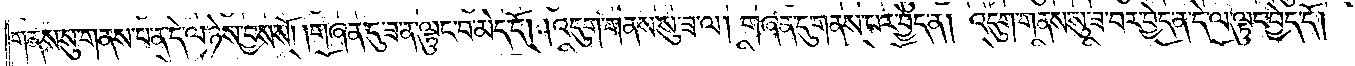གནས་སུ་གནས་པ་ན་དེ་ལ་ཉེས་བྱས་སོ། །གཞན་དུ་ཟ་ན་ལྟུང་བ་མེད་དོ། །འདུག་གནས་སུ་ཟ་ལ། གཞན་དུ་གནས་པར་བྱེད་ན། འདུག་གནས་སུ་ཟ་བར་བྱེད་ན་དེ་ལ་ལྟུང་བྱེད་དོ། །
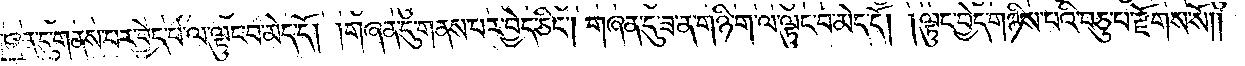གཞན་དུ་གནས་པར་བྱེད་པ་ལ་ལྟུང་བ་མེད་དོ། །གཞན་དུ་གནས་པར་བྱེད་ཅིང༌། གཞན་དུ་ཟ་ན་གཉི་ག་ལ་ལྟུང་བ་མེད་དོ། །ལྟུང་བྱེད་གཉིས་པའི་བཅུ་པ་རྫོགས་སོ༎
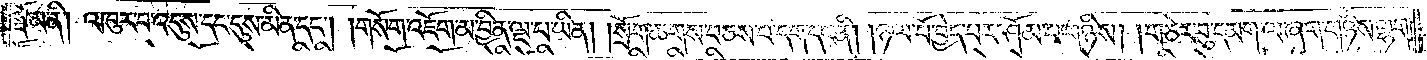སྡོམ་ནི། འཁུར་བ་འདུས་དང་དུས་མིན་དང༌། །གསོག་འཇོག་མ་བྱིན་ལྔ་པ་ཡིན། །སྲོག་ཆགས་བཅས་པ་དག་དང་ནི། །ཉལ་པོ་བྱེད་པར་ཤོམ་པ་གཉིས། །གཅེར་བུ་དམག་ལ་ཞག་གཉིས་ལྷག་
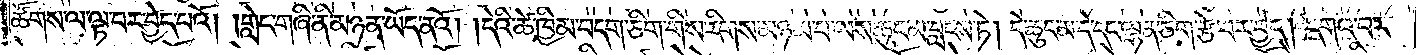ཚོགས་ལ་ལྟ་བར་བྱེད་པའོ། །གླེང་གཞི་ནི་མཉན་ཡོད་ནའོ། །དེའི་ཚེ་ཁྱིམ་བདག་ཅིག་གིས་རིགས་མཉམ་པ་ལས་ཆུང་མ་བླངས་ཏེ། དེ་ཆུང་མ་དེ་དང་ལྷན་ཅིག་རྩེ་བར་བྱེད། དགའ་བར་
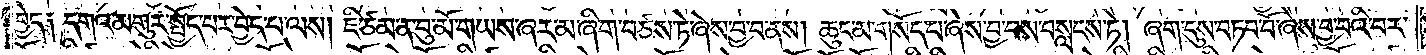བྱེད༑ དགའ་མགུར་སྤྱོད་པར་བྱེད་པ་ལས། ཇི་ཙམ་ན་བུ་མོ་གཡས་ཞར་མ་ཞིག་བཙས་ཏེ་ཞེས་བྱ་བ་ནས། ཆུང་མ་གསོད་པ་ཞེས་བྱ་བས་བསླངས་ཏེ། ཞག་དུས་བཏབ་བོ་ཞེས་བྱ་བའི་བར་
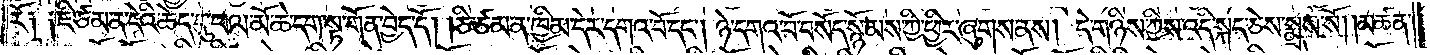རོ༑ ༑ཇི་ཙམ་ན་དེའི་ཆེད་དུ་ཕལ་མོ་ཆེ་དག་སྟ་གོན་བྱེད་དོ། །ཅི་ཙམ་ན་ཁྱིམ་དེར་དགའ་བོ་དང༌། ཉེ་དགའ་བོ་བསོད་སྙོམས་ཀྱི་ཕྱིར་ཞུགས་ནས། དེ་གཉིས་ཀྱིས་འདི་སྐད་ཅེས་སྨྲས་སོ། །མཚན་
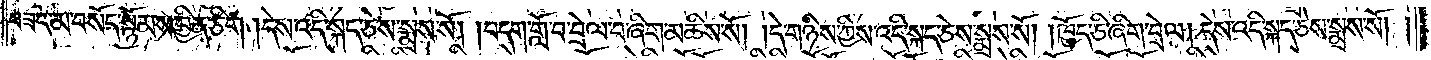བཟང་མ་བསོད་སྙོམས་བྱིན་ཅིག །དེས་འདི་སྐད་ཅེས་སྨྲས་སོ། །བདག་གློ་བ་བྲེལ་བ་ཞིག་མཆིས་སོ། །དེ་གཉིས་ཀྱིས་འདི་སྐད་ཅེས་སྨྲས་སོ། །ཁྱོད་ཅི་ཞིག་བྲེལ། དེས་འདི་སྐད་ཅེས་སྨྲས་སོ།
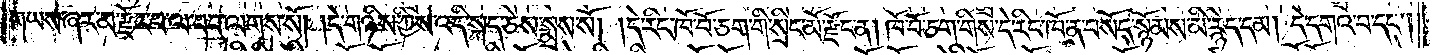གཡས་ཞར་མ་རྫོང་བ་ལ་བབ་ལགས་སོ། །དེ་གཉིས་ཀྱིས་འདི་སྐད་ཅེས་སྨྲས་སོ། །དེ་རིང་ཁོ་བོ་ཅག་གི་སྲིང་མོ་རྫོང་ན། ཁོ་བོ་ཅག་གིས་དེ་རིང་ཁོ་ན་བསོད་སྙོམས་མི་རྙེད་དམ། དེ་དགའ་བ་དང༌།
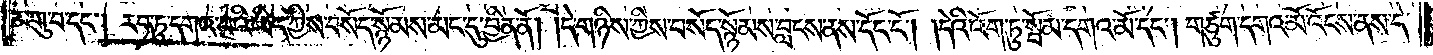མགུ་བ་དང༌། རབ་ཏུ་དགའ་བའི་ཡིད་ཀྱིས་བསོད་སྙོམས་མང་དུ་བྱིན་ནོ། །དེ་གཉིས་ཀྱིས་བསོད་སྙོམས་བླངས་ནས་དོང་ངོ༌། །དེའི་འོག་ཏུ་སྦོམ་དགའ་མོ་དང༌། གཙུག་དགའ་མོ་འོངས་ནས་དེ་
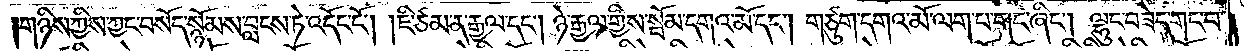གཉིས་ཀྱིས་ཀྱང་བསོད་སྙོམས་བླངས་ཏེ་འདོང་ངོ༌། །ཇི་ཙམ་ན་རྒྱལ་དང༌། ཉེ་རྒྱལ་གྱིས་སྦོམ་དགའ་མོ་དང༌། གཙུག་དགའ་མོ་ལག་པ་གང་ཞིང༌། ལྷུང་བཟེད་གང་བ་
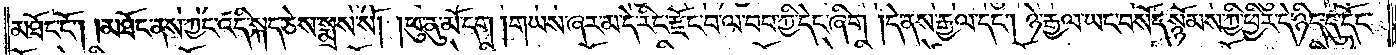མཐོང་ངོ༌། །མཐོང་ནས་ཀྱང་འདི་སྐད་ཅེས་སྨྲས་སོ། །ཕུ་ནུ་མོ་དག །གཡས་ཞར་མ་དེ་རིང་རྫོང་བ་ལ་བབ་ཀྱི་དེང་ཞིག །དེ་ནས་རྒྱལ་དང༌། ཉེ་རྒྱལ་ཡང་བསོད་སྙོམས་ཀྱི་ཕྱིར་དེ་ཉིད་དུ་དོང་
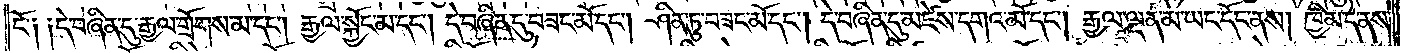ངོ༑ ༑དེ་བཞིན་དུ་རྒྱལ་གྲོགས་མ་དང༌། རྒྱལ་སྐྱོང་མ་དང༌། དེ་བཞིན་དུ་བཟང་མོ་དང༌། ཤིན་ཏུ་བཟང་མོ་དང༌། དེ་བཞིན་དུ་མཛེས་དགའ་མོ་དང༌། རྒྱལ་ལྡན་མ་ཡང་དོང་ནས། ཁྱིམ་དེ་ནས་
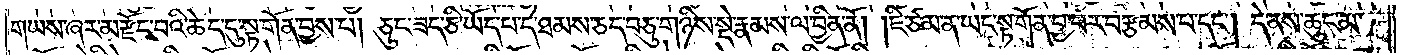གཡས་ཞར་མ་རྫོང་བའི་ཆེད་དུ་སྟ་གོན་བྱས་པ། ཅུང་ཟད་ཅི་ཡོད་པ་དེ་ཐམས་ཅད་བཅུ་གཉིས་སྡེ་རྣམས་ལ་བྱིན་ནོ། །ཇི་ཙམ་ན་ཡང་སྟ་གོན་བྱ་བར་བརྩམས་པ་དང༌། དེ་ནས་ཆུང་མ་
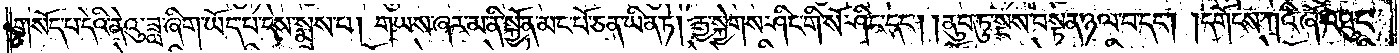གསོད་པ་དེའི་ནེའུ་ཟླ་ཞིག་ཡོད་པ་དེས་སྨྲས་པ། གཡས་ཞར་མ་ནི་སྐྱོན་མང་པོ་ཅན་ཡིན་ཏེ། རྒྱ་སྐྱེགས་ཤིང་གི་སོ་ཤིང་དང༌། །ནུབ་ཏུ་སྔས་བསྟན་ཉལ་བ་དང༌། །དགོངས་ཀའི་ཞོ་འཐུང་
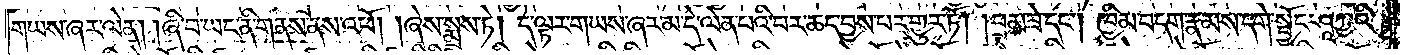གཡས་ཞར་ལེན། །ཞི་བ་ཡང་ནི་གནས་ནས་འཕོ། །ཞེས་སྨྲས་ཏེ། དེ་ལྟར་གཡས་ཞར་མ་དེ་ལེན་པའི་བར་ཆད་བྱས་པར་གྱུར་ཏོ། །བྲམ་ཟེ་དང༌། ཁྱིམ་བདག་རྣམས་དགེ་སྦྱོང་ཤཱཀྱའི་
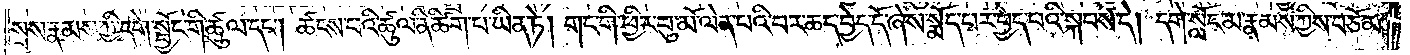སྲས་རྣམས་ཀྱི་དགེ་སྦྱོང་གི་ཚུལ་དང༌། ཚངས་པའི་ཚུལ་ནི་ཚིག་པ་ཡིན་ཏེ། གང་གི་ཕྱིར་བུ་མོ་ལེན་པའི་བར་ཆད་བྱེད་དོ་ཞེས་སྨོད་པར་བྱེད་པའི་སྐབས་དེ། དགེ་སློང་མ་རྣམས་ཀྱིས་བཅོམ་
